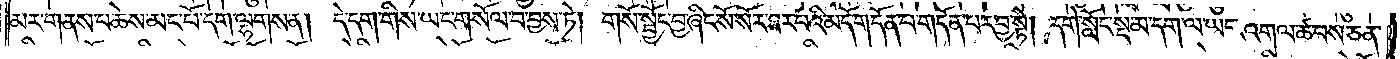མར་གནས་པ་ཆེས་མང་པོ་དག་ལྷགས་ན། དེ་དག་གིས་ཡང་གསོལ་བ་བྱས་ཏེ། གསོ་སྦྱོང་བྱ་ཞིང་སོ་སོར་ཐར་པའི་མདོ་གདོན་པ་གདོན་པར་བྱ་སྟེ། དགེ་སློང་སྔ་མ་དག་ལ་ཡང་འགལ་ཚབས་ཅན་
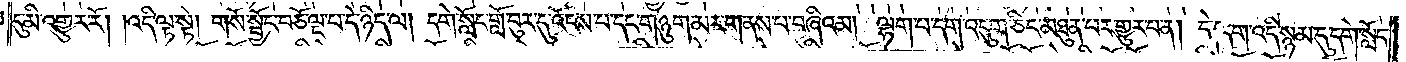དུ་མི་འགྱུར་རོ། །འདི་ལྟ་སྟེ། གསོ་སྦྱོང་བཅོ་ལྔ་པ་དེ་ཉིད་ལ། དགེ་སློང་གློ་བུར་དུ་འོངས་པ་དང་གཉུག་མར་གནས་པ་བཞིའམ། ལྷག་པ་དག་འདུག་ཅིང་མཐུན་པར་གྱུར་པ་ན། དེ་དག་འདི་སྙམ་དུ་དགེ་སློང་
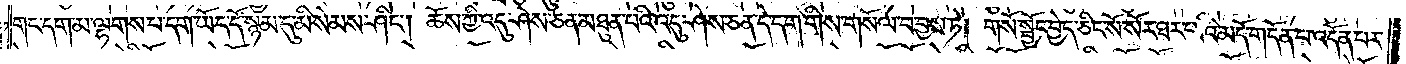གང་དག་མ་ལྷགས་པ་དག་ཡོད་དོ་སྙམ་དུ་མི་སེམས་ཤིང༌། ཆོས་ཀྱི་འདུ་ཤེས་ཅན་མཐུན་པའི་འདུ་ཤེས་ཅན་དེ་དག་གིས་གསོལ་བ་བྱས་ཏེ། གསོ་སྦྱོང་བྱེད་ཅིང་སོ་སོར་ཐར་པའི་མདོ་གདོན་པ་འདོན་པར་
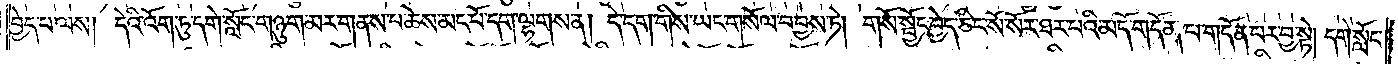བྱེད་པ་ལས། དེའི་འོག་ཏུ་དགེ་སློང་གཉུག་མར་གནས་པ་ཆེས་མང་པོ་དག་ལྷགས་ན། དེ་དག་གིས་ཡང་གསོལ་བ་བྱས་ཏེ། གསོ་སྦྱོང་བྱེད་ཅིང་སོ་སོར་ཐར་པའི་མདོ་གདོན་པ་གདོན་པར་བྱ་སྟེ། དགེ་སློང་
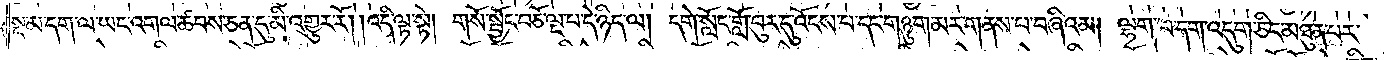སྔ་མ་དག་ལ་ཡང་འགལ་ཚབས་ཅན་དུ་མི་འགྱུར་རོ། །འདི་ལྟ་སྟེ། གསོ་སྦྱོང་བཅོ་ལྔ་བ་དེ་ཉིད་ལ། དགེ་སློང་གློ་བུར་དུ་འོངས་པ་དང་གཉུག་མར་གནས་པ་བཞིའམ། ལྷག་པ་དག་འདུག་ཅིང་མཐུན་པར་
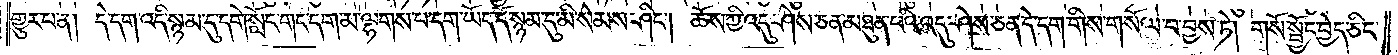གྱུར་པ་ན། དེ་དག་འདི་སྙམ་དུ་དགེ་སློང་གང་དག་མ་ལྷགས་པ་དག་ཡོད་དོ་སྙམ་དུ་མི་སེམས་ཤིང༌། ཆོས་ཀྱི་འདུ་ཤེས་ཅན་མཐུན་པའི་འདུ་ཤེས་ཅན་དེ་དག་གིས་གསོལ་བ་བྱས་ཏེ། གསོ་སྦྱོང་བྱེད་ཅིང་
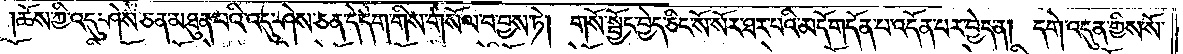ཆོས་ཀྱི་འདུ་ཤེས་ཅན་མཐུན་པའི་འདུ་ཤེས་ཅན་དེ་དག་གིས་གསོལ་བ་བྱས་ཏེ། གསོ་སྦྱོང་བྱེད་ཅིང་སོ་སོར་ཐར་པའི་མདོ་གདོན་པ་འདོན་པར་བྱེད་ན། དགེ་འདུན་གྱིས་སོ་
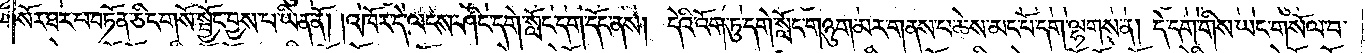སོར་ཐར་པ་བཏོན་ཅིང་གསོ་སྦྱོང་བྱས་པ་ཡིན་ནོ། །འཁོར་དེ་ལངས་ཤིང་དགེ་སློང་དག་དོང་ནས། དེའི་འོག་ཏུ་དགེ་སློང་གཉུག་མར་གནས་པ་ཆེས་མང་པོ་དག་ལྷགས་ན། དེ་དག་གིས་ཡང་གསོལ་བ་
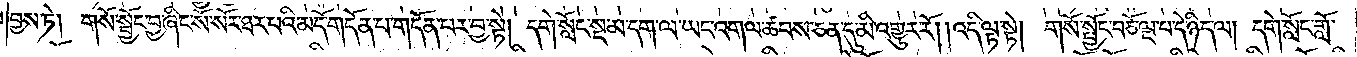བྱས་ཏེ། གསོ་སྦྱོང་བྱ་ཞིང་སོ་སོར་ཐར་པའི་མདོ་གདོན་པ་གདོན་པར་བྱ་སྟེ། དགེ་སློང་སྔ་མ་དག་ལ་ཡང་འགལ་ཚབས་ཅན་དུ་མི་འགྱུར་རོ། །འདི་ལྟ་སྟེ། གསོ་སྤྱོང་བཅོ་ལྔ་པ་དེ་ཉིད་ལ། དགེ་སློང་གློ་
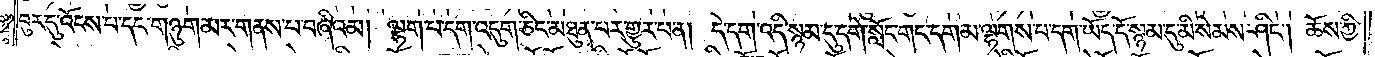བུར་དུ་འོངས་པ་དང་གཉུག་མར་གནས་པ་བཞིའམ། ལྷག་པ་དག་འདུག་ཅིང་མཐུན་པར་གྱུར་པ་ན། དེ་དག་འདི་སྙམ་དུ་དགེ་སློང་གང་དག་མ་ལྷགས་པ་དག་ཡོད་དོ་སྙམ་དུ་མི་སེམས་ཤིང༌། ཆོས་ཀྱི་
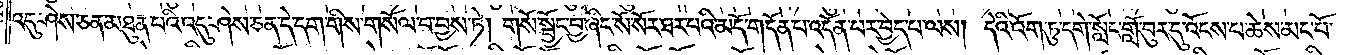འདུ་ཤེས་ཅན་མཐུན་པའི་འདུ་ཤེས་ཅན་དེ་དག་གིས་གསོལ་བ་བྱས་ཏེ། གསོ་སྦྱོང་བྱ་ཞིང་སོ་སོར་ཐར་པའི་མདོ་གདོན་པ་འདོན་པར་བྱེད་པ་ལས། དེའི་འོག་ཏུ་དགེ་སློང་གློ་བུར་དུ་འོངས་པ་ཆེས་མང་པོ་
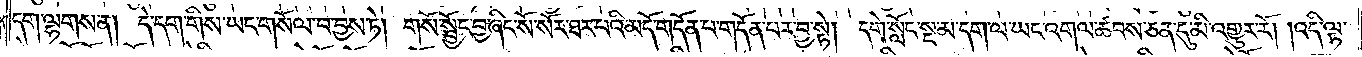དག་ལྷགས་ན། དེ་དག་གིས་ཡང་གསོལ་བ་བྱས་ཏེ། གསོ་སྦྱོང་བྱ་ཞིང་སོ་སོར་ཐར་པའི་མདོ་གདོན་པ་གདོན་པར་བྱ་སྟེ། དགེ་སློང་སྔ་མ་དག་ལ་ཡང་འགལ་ཚབས་ཅན་དུ་མི་འགྱུར་རོ། །འདི་ལྟ་
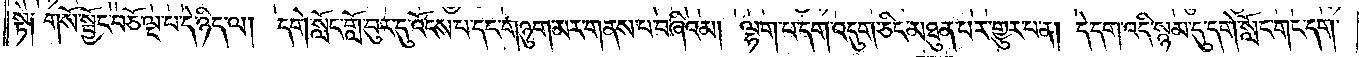སྟེ༑ གསོ་སྦྱོང་བཅོ་ལྔ་པ་དེ་ཉིད་ལ། དགེ་སློང་གློ་བུར་དུ་འོངས་པ་དང་གཉུག་མར་གནས་པ་བཞིའམ། ལྷག་པ་དག་འདུག་ཅིང་མཐུན་པར་གྱུར་པ་ན། དེ་དག་འདི་སྙམ་དུ་དགེ་སློང་གང་དག་
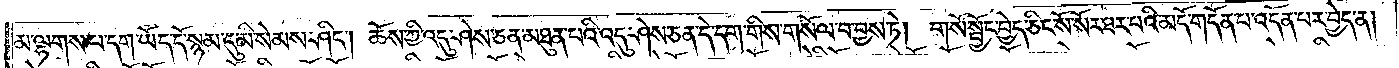མ་ལྷགས་པ་དག་ཡོད་དོ་སྙམ་དུ་མི་སེམས་ཤིང༌། ཆོས་ཀྱི་འདུ་ཤེས་ཅན་མཐུན་པའི་འདུ་ཤེས་ཅན་དེ་དག་གིས་གསོལ་བ་བྱས་ཏེ།  གསོ་སྦྱོང་བྱེད་ཅིང་སོ་སོར་ཐར་པའི་མདོ་གདོན་པ་འདོན་པར་བྱེད་ན།
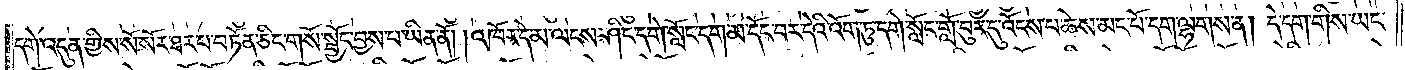དགེ་འདུན་གྱིས་སོ་སོར་ཐར་པ་བཏོན་ཅིང་གསོ་སྦྱོང་བྱས་པ་ཡིན་ནོ། །འཁོར་དེ་མ་ལངས་ཤིང་དགེ་སློང་དག་མ་དོང་བར་དེའི་འོག་ཏུ་དགེ་སློང་གློ་བུར་དུ་འོངས་པ་ཆེས་མང་པོ་དག་ལྷགས་ན། དེ་དག་གིས་ཡང་
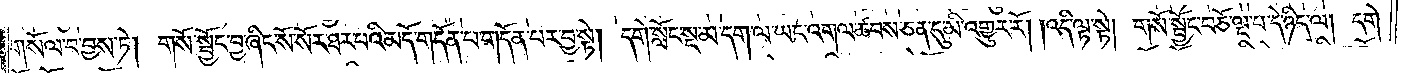གསོལ་བ་བྱས་ཏེ། གསོ་སྦྱོང་བྱ་ཞིང་སོ་སོར་ཐར་པའི་མདོ་གདོན་པ་གདོན་པར་བྱ་སྟེ། དགེ་སློང་སྔ་མ་དག་ལ་ཡང་འགལ་ཚབས་ཅན་དུ་མི་འགྱུར་རོ། །འདི་ལྟ་སྟེ། གསོ་སྦྱོང་བཅོ་ལྔ་པ་དེ་ཉིད་ལ། དགེ་
